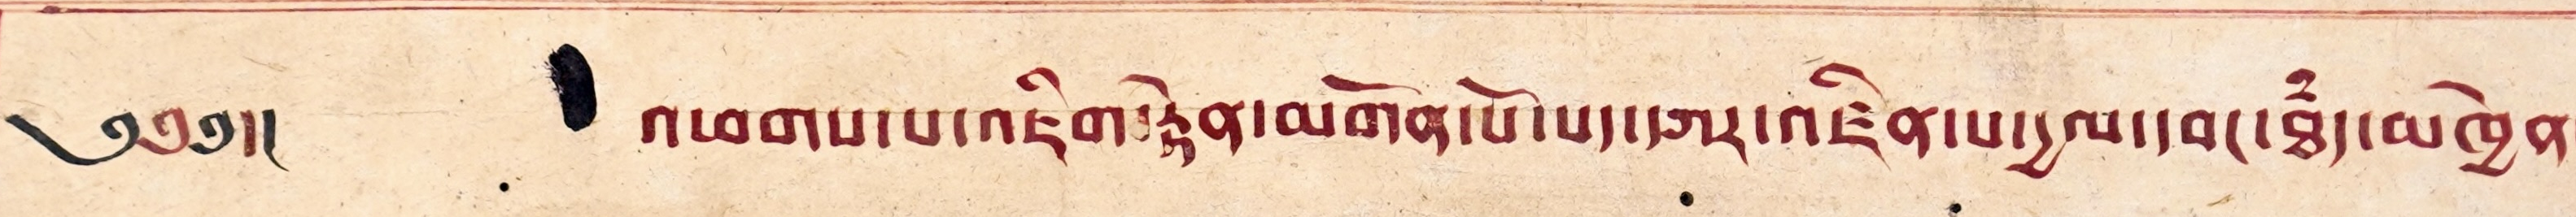༄༅།།  འཕགས་པ་འཇིག་རྟེན་མགོན་པོ་པད་དཀར་འཛིན་པ་དྱལ་དབང་ཐཾད་མཁྱེན་
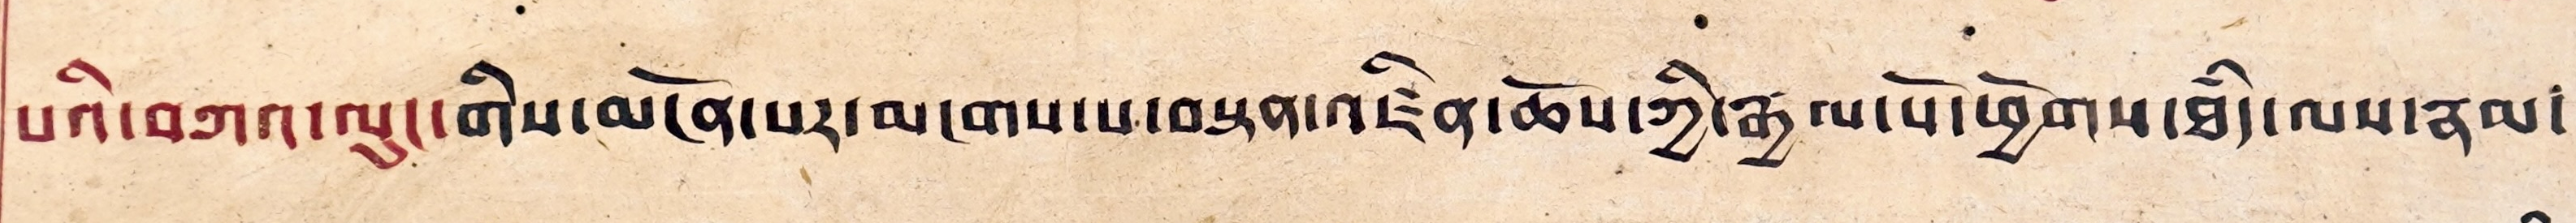པའི་བཀའ་ལུང་གིས་མངོན་པར་མངགས་པ་བསྟན་འཛིན་ཆོས་ཀྱི་རྒྱལ་པོ་ཕྱོགས་ཐཾད་ལས་རྣམ་
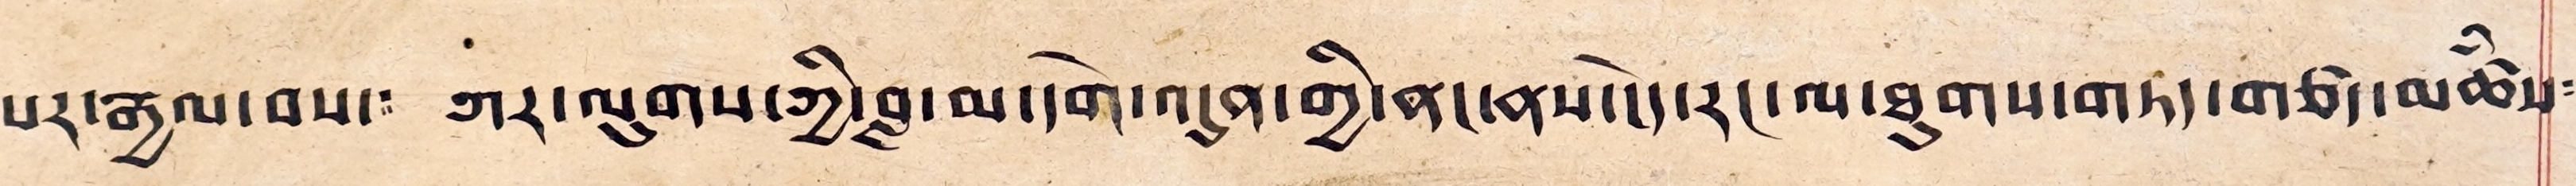པར་རྒྱལ་བས། ཀར་ལུགས་ཀྱི་བླ་མ་དགེ་འདུན་གྱི་ནང་ནས་ངེད་རང་ལ་ཐུགས་གཏད་གཙད་མཚཾས་
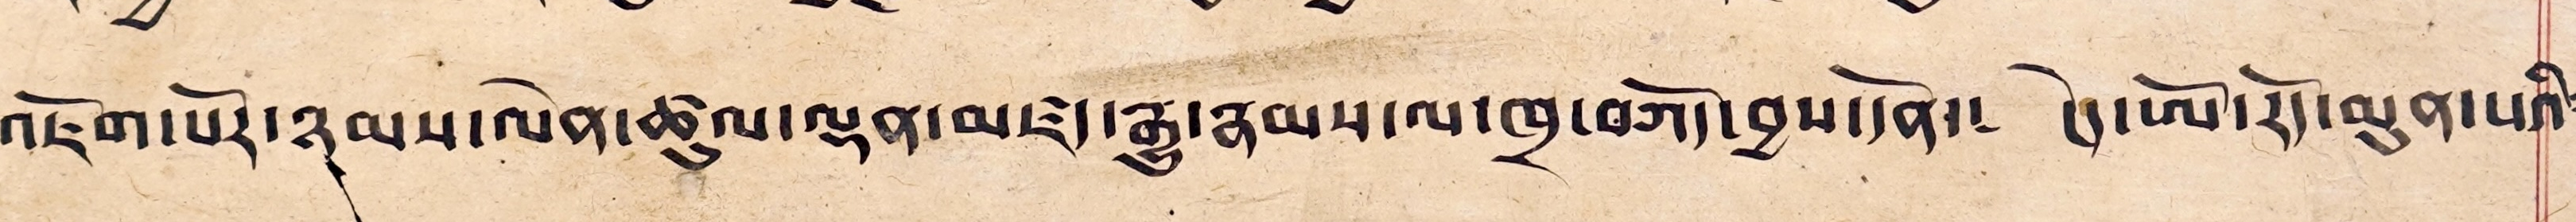འཇོག་པོར་ཉམས་ལེན་ཚུལ་ལྡན་མཛད་རྒྱུ་རྣམས་ལ་ཁྲ་བཀོད་བྱས་དོན་། ངེད་ཨོ་རོད་མུན་པའི་
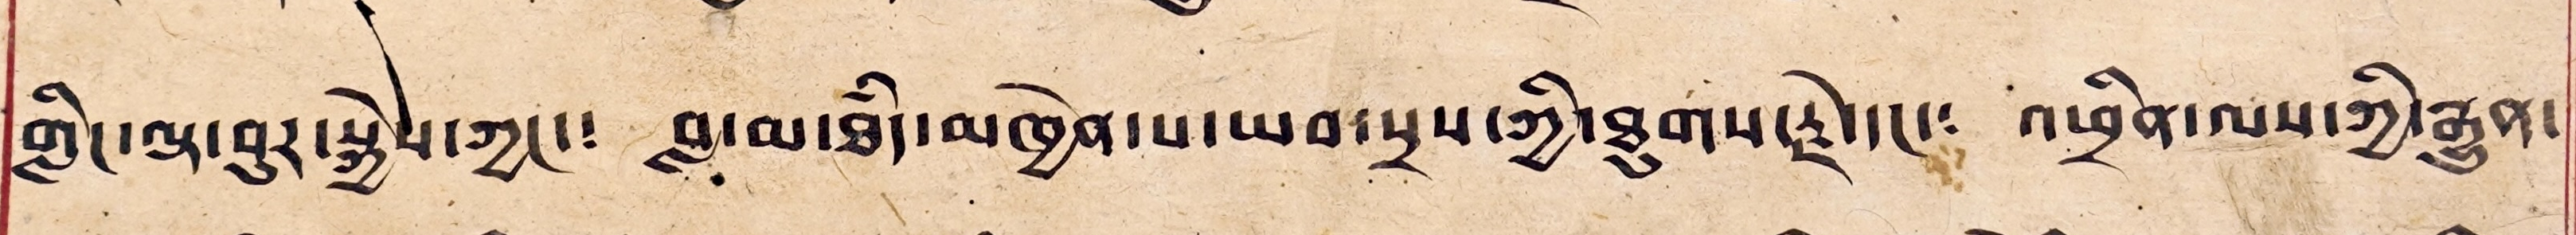གླིང་ལྟ་བུར་སྐྱེས་ཀྱང་། བླ་མ་ཐཾད་མཁྱེན་པ་ཡབ་སྲས་ཀྱི་ཐུགས་རྗེ་དང་། འཕྲིན་ལས་ཀྱི་རྒྱུན་
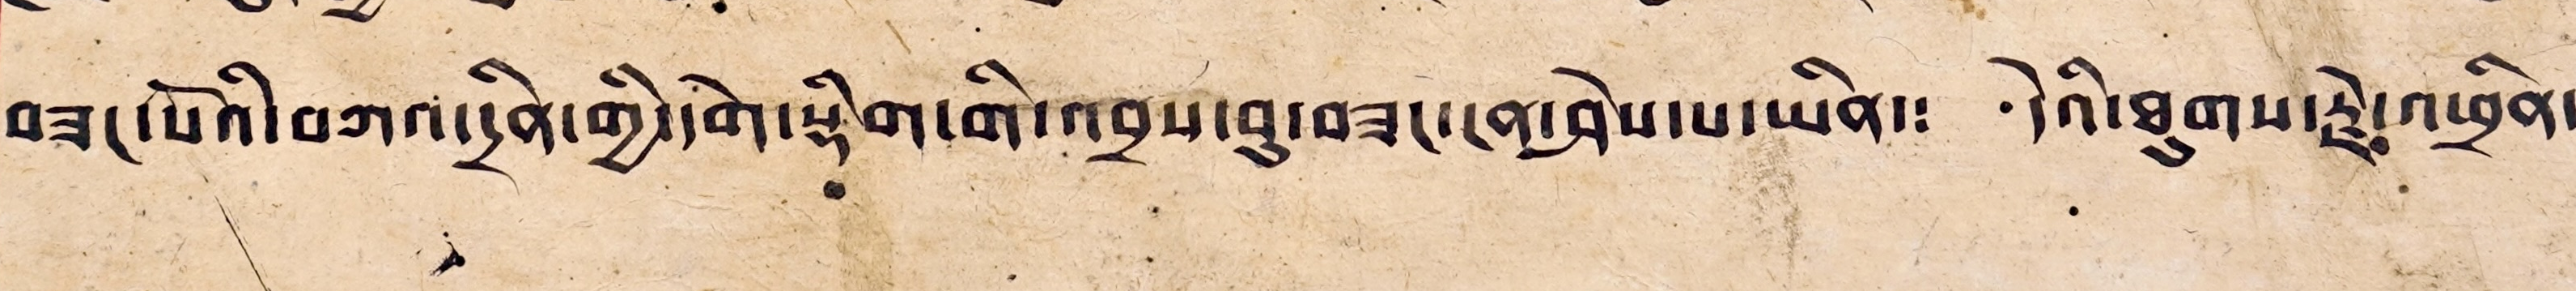བཟང་པོའི་བཀའ་དྲིན་གྱི་དགེ་སྡིག་གི་འབྲས་བུ་བཟང་ངན་ཤེས་པ་ཡིན། དེའི་ཐུགས་རྗེ་འཕྲིན་
